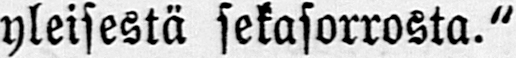yleisestä sekasorrosta."
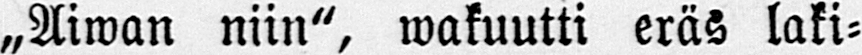„Aiwan niin", wakuutti eräs laki-
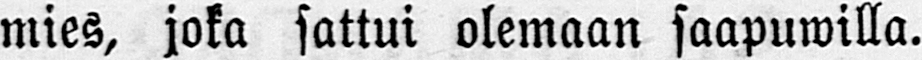mies, joka sattui olemaan saapuwilla.
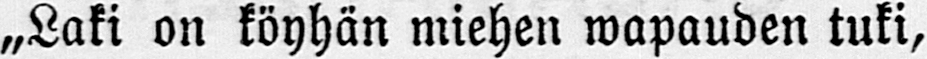„Laki on köyhän miehen wapauden tuki,
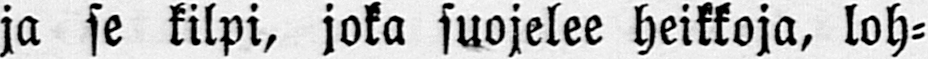ja se kilpi, joka suojelee heikkoja, loh-
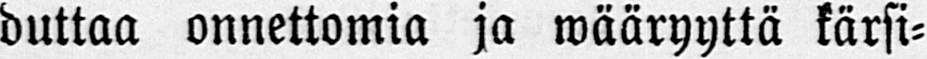duttaa onnettomia ja wääryyttä kärsi-
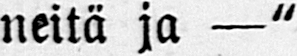neitä ja —"
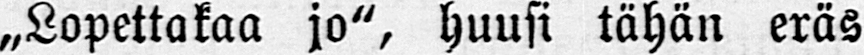„Lopettakaa jo", huusi tähän eräs
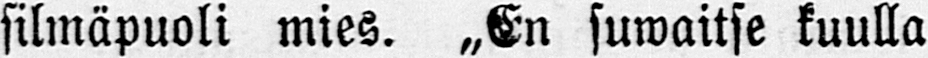silmäpuoli mies. „En suwaitse kuulla
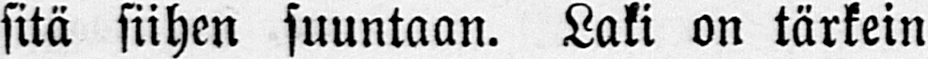sitä siihen suuntaan. Laki on tärkein
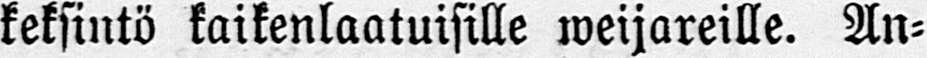keksintö kaikenlaatuisille weijareille. An-
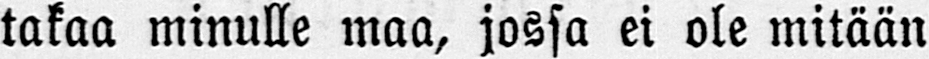takaa minulle maa, jossa ei ole mitään
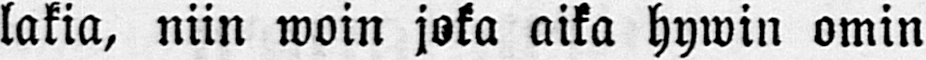lakia, niin woin joka aika hywin omin
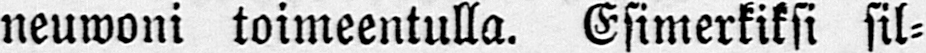neuwoni toimeentulla. Esimerkiksi sil-
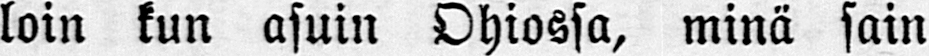loin kun asuin Ohiossa, minä sain
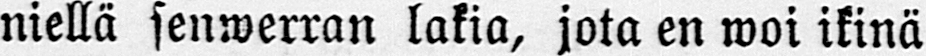niellä senwerran lakia, jota en woi ikinä
